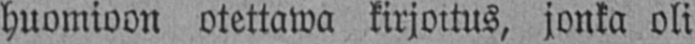huomioon otettawa kirjoitus, jonka oli
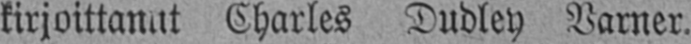kirjoittanut Charles Dudleh Varner.
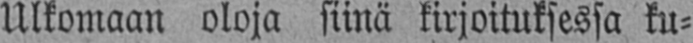Ulkomaan oloja siinä kirjoituksessa ku-
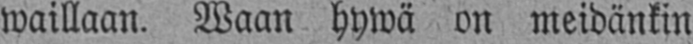waillaan. Waan hywä on meidänkin
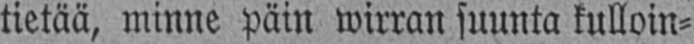tietää, minne päin wirran suunta kulloin-
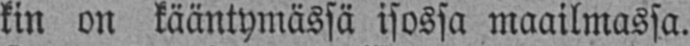kin on kääntymässä isossa maailmassa.
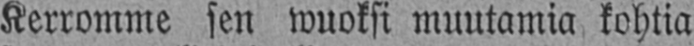Kerromme sen wuoksi muutamia kohtia
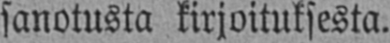sanotusta kirjoituksesta.
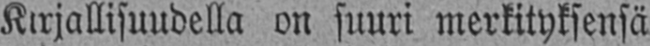Kirjallisuudella on suuri merkityksensä
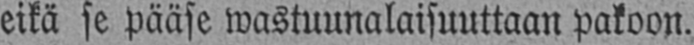eikä se pääse wastuunalaisuuttaan pakoon.
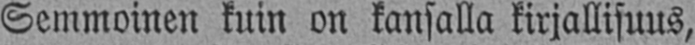Semmoinen kuin on kansalla kirjallisuus,
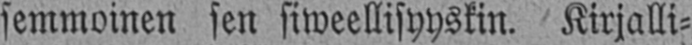semmoinen sen siweellisyyskin. Kirjalli-
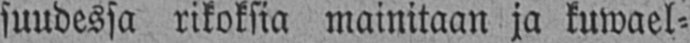suudessa rikoksia mainitaan ja kuwael-
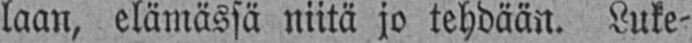laan, elämässä niitä jo tehdään. Luke-
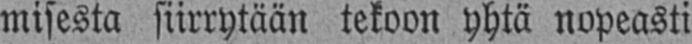misesta siirrytään tekoon yhtä nopeasti
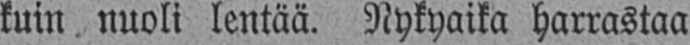kuin nuoli lentää. Nykyaika harrastaa
